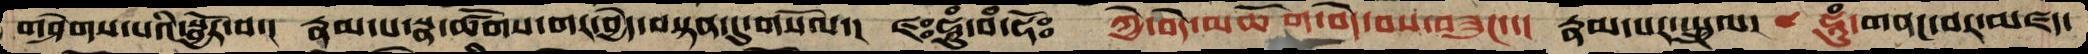གཤེགས་པའི་སྦྱོར་བ་།  རྣམ་པ་སྣ་ཚོགས་གར་བྱེད་བསྟན་དུ་གསོལ་།  ཛཿཧཱུཾ་བཾ་ཧོཿ ཀྱེ་བདེ་མཆོག་བདེ་བས་གཟུང་་།  རྣམ་པར་སྤྲུལ་  ཧཱུཾ་གནང་བར་མཛད་
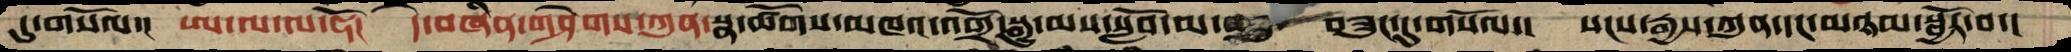དུ་གསོལ་།  ཨ་ལ་ལ་ཧོ།  དེ་བཞིན་གཤེགས་ཀུན་སྣ་ཚོགས་མཁའ་འགྲོ་སྒྱུ་མས་སློབ་མ་ བཟུང་དུ་གསོལ་།  སངས་རྒྱས་ཀུན་དང་མཉམ་སྦྱོར་བ་།
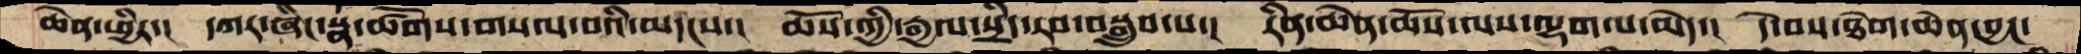ཆེན་ཕྱིར་།  དཀར་ཞིང་སྣ་ཚོགས་གསལ་བའི་མདངས་།  ཆསོ་ཀྱི་རྒྱལ་སྲིད་རབ་བསྒྲུབ་པ་།  རིན་ཆེན་ཆོས་ལས་ལྷག་པ་མེད་།  དེ་བས་ཐེག་ཆེན་བྱང་
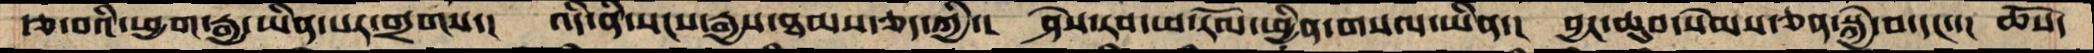རྩ་བའི་ཕྱག་རྒྱ་ཡིན་པར་གྲགས་།  འདི་ནི་སངས་རྒྱས་ཐམས་ཅད་ཀྱི་།  ཤེས་རབ་ཕ་རོལ་ཕྱིན་གསལ་ཡིན་།  བྱང་ཆུབ་སེམས་ཅན་སྐྱེ་བ་དང་་།  ཆོས་
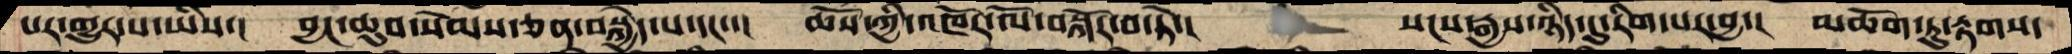པར་གྱུར་པ་ཡིས་།  བྱང་ཆུབ་སེམས་ཅན་བསྐྱེད་པ་དང་་།  ཆོས་ཀྱིའཁོར་ལོ་བསྐོར་བ་ཏེ་།    སངས་རྒྱས་ཉིད་དུ་རིག་པར་བྱ་།  མཆོག་ཏུ་རྟགས་
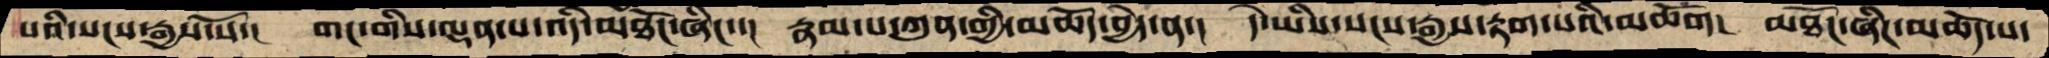པའི་སངས་རྒྱས་སོ་།  གང་གིས་ལྡན་པ་འདི་མཐོང་ཞིང་་།  རྣམ་པ་ཀུན་གྱི་མཆོད་བྱེད་ན་།  དེ་ཡིས་སངས་རྒྱས་རྟག་པའི་མཆོག།  མཐོང་ཞིང་མཆོད་པ་
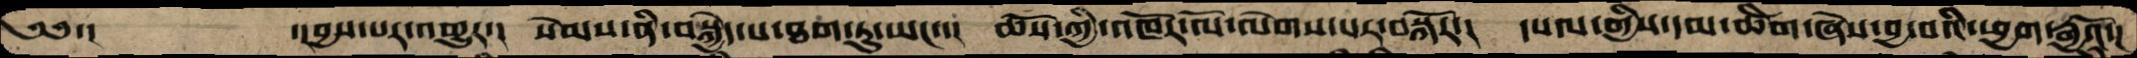༄༅་།       ་།བྱས་པར་འགྱུར་།  སེམས་ནི་བསྐྱེད་པ་ཐག་ཏུ་ཡང་་།  ཆོས་ཀྱི་འཁོར་ལོ་ལེགས་པར་བསྐོར་།  དཔལ་གྱིས་དམ་ཚིག་ཞེས་བྱ་བའི་ཕྱག་རྒྱའོ་།
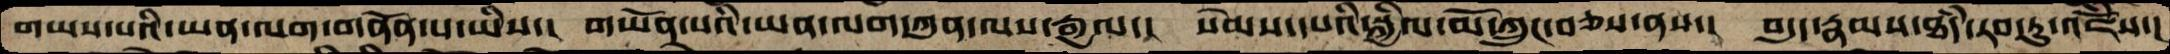གཡས་པའི་ཡན་ལག་གནོན་པ་ཡིས་།  གཡོན་པའི་ཡན་ལག་ཀུན་ལས་རྒྱལ་།  སེམས་པའི་སྐྱིལ་མོ་ཀྲུང་བཅས་ནས་།  བདུད་རྣམས་ཐཾད་རབ་ཏུ་འཇོཾས་།
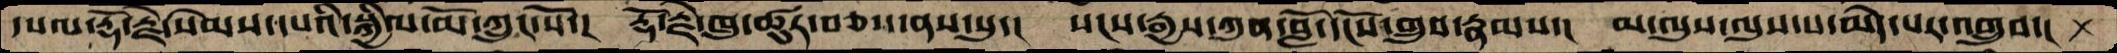དཔལ་རྡོ་རྗེ་སེམས་དཔའི་སྐྱིལ་མོ་ཀྲུང་སོ་།  རྡོ་རྗེ་ཁུ་ཚུར་བཅས་ནས་སུ་།  སངས་རྒྱས་ཀུན་བློ་དངོས་གྲུབ་རྣམས་།  མ་ལུས་ལུས་པ་མེད་པར་འགྲུབ་
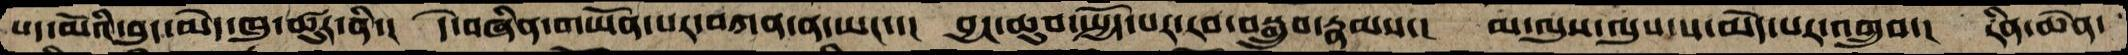པད་མོའི་བུད་མེད་ཁུ་ཚུར་ནི་།  དེ་བཞིན་གཡོན་པར་བཀན་ན་ཡང་་།  བྱང་ཆུབསྤྱོད་པར་རབ་བསྒྲུབ་རྣམས་།  མ་ལུས་ལུས་པ་མེད་པར་འགྲུབ་།  རིན་ཆེན་
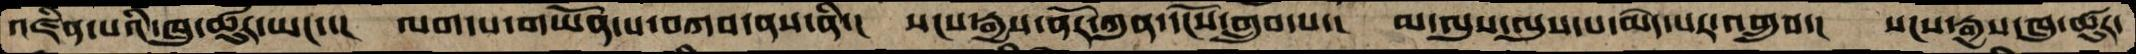འཛིན་པའི་ཁུ་ཚུར་ཡང་་།  ལག་པ་གཡོན་པ་བཀབ་ནས་ནི་།  སངས་རྒྱས་ནོར་ཀུན་དངོས་གྲུབ་པ་།  མ་ལུས་ལུས་པ་མེད་པར་འགྲུབ་། སངས་རྒྱས་ཁུ་ཚུར་
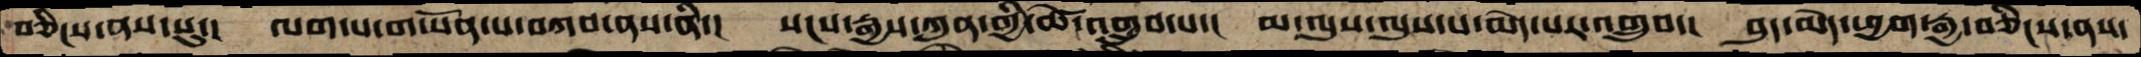བཅིངས་ནས་སུ་།  ལག་པ་གཡོན་པ་བཀབ་ནས་ནི་།  སངས་རྒྱས་ཀུན་གྱི་ཚེ་འགྲུབ་པ་།  མ་ལུས་ལུས་པ་མེད་པར་འགྲུབ་།  བུད་མེད་ཕྱག་རྒྱ་བཅིངས་ནས་
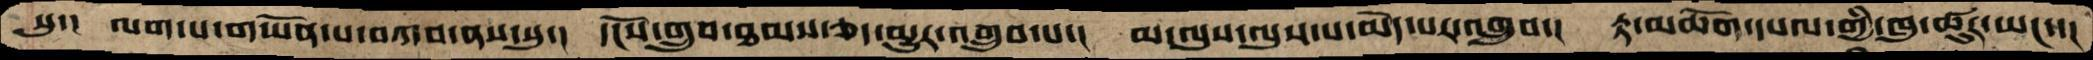སུ་།  ལག་པ་གཡོན་པ་བཀབ་ནས་སུ་།  དངོས་གྲུབ་ཐམས་ཅད་མྱུར་འགྲུབ་པ་།  མ་ལུས་ལུས་པ་མེད་པར་འགྲུབ་།  རྟ་མཆོག་དཔལ་གྱི་ཁུ་ཚུར་ཡང་་།
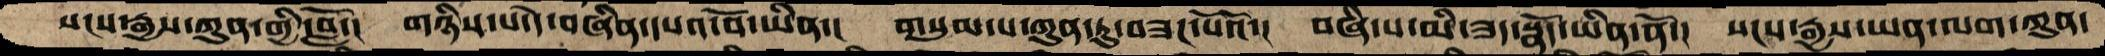སངས་རྒྱས་ཀུན་གྱི་བློ་།  གཉིས་པ་དེ་བཞིན་དཔའ་བོ་ཡིན་།  གསུམ་པ་ཀུན་ཏུ་བཟང་པོའོ་།  བཞི་པ་མི་ཟད་སྣོད་ཡིན་ནོ་།  སངས་རྒྱས་ཡན་ལག་ཀུན་
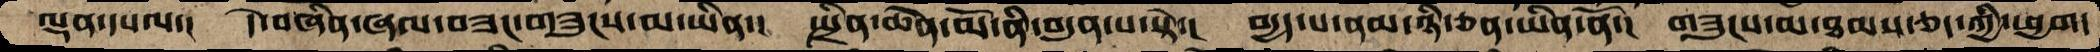ལྡན་དཔལ་།  དེ་བཞིན་ཞལ་བཟང་གཟུངས་མ་ཡིན་།  སྤྲིན་ཆེན་མོ་ནི་བདུན་པ་སྟེ་།  བདྱད་པ་ནམ་ཉི་ཅན་ཡིན་ནོ་།  གཟུངས་མ་ཐམས་ཅད་ཀྱི་ཕྱག་
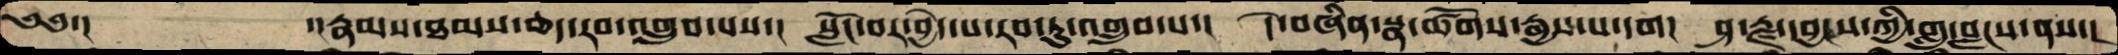༄༅་།     ་།རྣམས་ཐམས་ཅད་རབ་འགྲུབ་པས་།  སློང་བར་བྱེད་པ་རབ་ཏུ་འགྲུབ་པ་།  དེ་བཞིན་སྣ་ཚོགས་རྒྱས་པ་དག།  ཤ་རྫ་དབྱངས་ཀྱི་གླུ་བླངས་ནས་།
